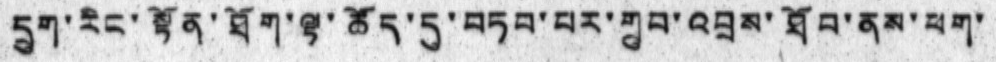དྲུག་རིང་སྟོན་ཐོག་ལྷ་ཆོད་དུ་བཏབ་པར་གྲུབ་འབྲས་ཐོབ་ནས་ཕག་
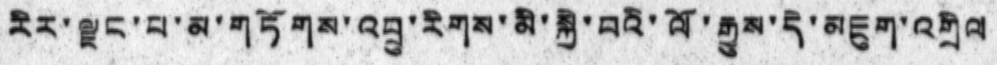རིར་ལྗང་པ་མ་གཏོགས་འབྲུ་རིགས་མི་སྐྱེ་བའི་ལོ་རྒྱུས་དེ་མཇུག་འགྲིལ
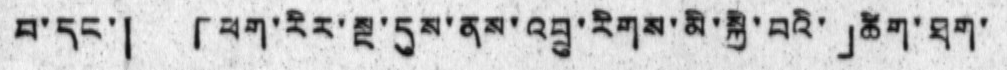བ་དང་། 「ཕག་རིར་སྔ་དུས་ནས་འབྲུ་རིགས་མི་སྐྱེ་བའི་」ཚིག་ཐག་
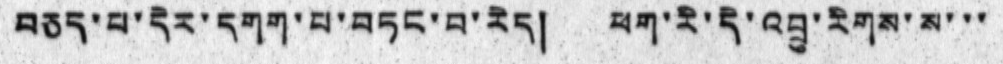བཅད་པ་དེར་དགག་པ་བཏང་བ་རེད། ཕག་རི་དེ་འབྲུ་རིགས་ས་་་
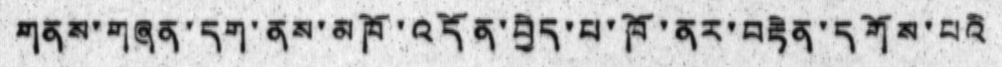གནས་གཞན་དག་ནས་མཁོ་འདོན་བྱེད་པ་ཁོ་ནར་བརྟེན་དགོས་པའི
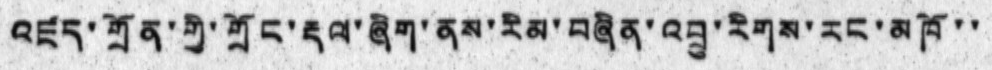འཛད་གྲོན་གྱི་གྲོང་རྡལ་ཞིག་ནས་རིམ་བཞིན་འབྲུ་རིགས་རང་མཁོ་་
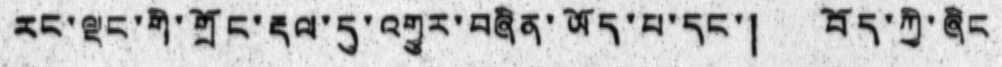རང་ལྡང་གི་གྲོང་རྡལ་དུ་འགྱུར་བཞིན་ཡོད་པ་དང་། བོད་ཀྱི་ཞིང
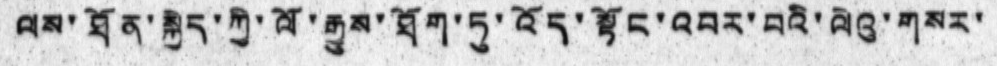ལས་ཐོན་སྐྱེད་ཀྱི་ལོ་རྒྱུས་ཐོག་ཏུ་འོད་སྟོང་འབར་བའི་ལེའུ་གསར་
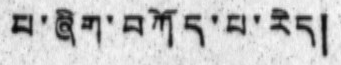བ་ཞིག་བཀོད་པ་རེད།
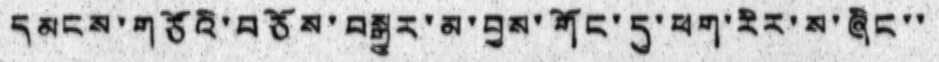དམངས་གཙོའི་བཅོས་བསྒྱུར་མ་བྱས་གོང་དུ་ཕག་རིར་ས་ཞིང་་
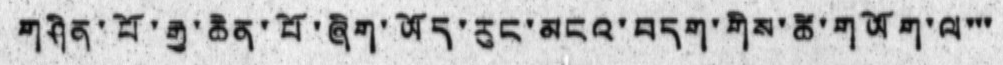གཤིན་པོ་རྒྱ་ཆེན་པོ་ཞིག་ཡོད་རུང་མངའ་བདག་གིས་ཚེ་གཡོག་ལ་་་
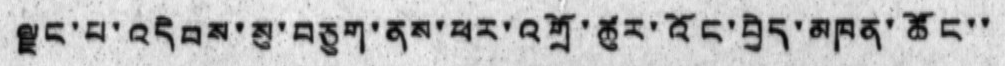ལྡང་་འདེབས་སུ་བཅུག་ནས་ཕར་འགྲོ་ཚུར་འོང་བྱེད་མཁན་ཚོང་་
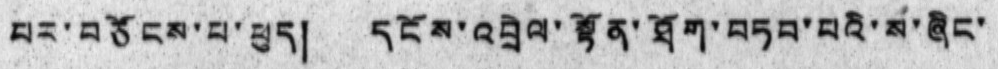པར་བཅོངས་པ་ཕུད། དངོས་འབྲེལ་སྟོན་ཐོག་བཏབ་པའི་ས་ཞིང་
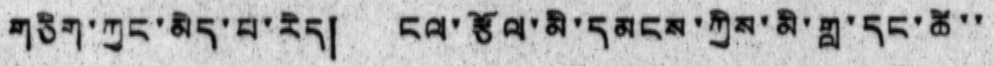གཅིག་ཀྱང་མེད་པ་རེད། ངལ་ཙོལ་མི་དམངས་ཀྱིས་མི་གླ་དང་ཚེ་་
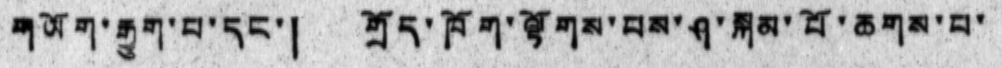གཡོག་རྒྱུག་པ་དང་། གྲོད་ཁོག་ལྟོགས་པས་ཤ་སྐམ་པོ་ཆགས་པ་
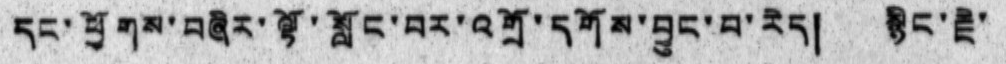དང་ཕྱོགས་བཞིར་ལྟོ་སློང་བར་འགྲོ་དགོས་བྱུང་བ་རེད། སྙིང་རྗེ་
